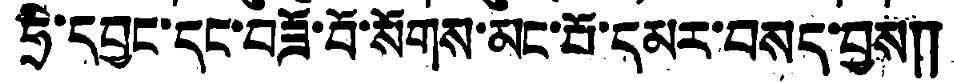ཧྲི་དབྱང་དང་བཟོ་བོ་སོགས་མང་པོ་དམར་བསད་བྱས༎
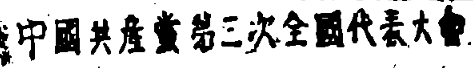中國共產黨第二次全國代表大會
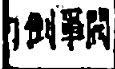打倒軍閥
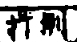打倒
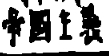帝國主義
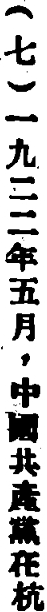（七）一九二二年五月，中國共產黨在杭
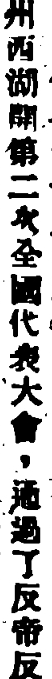州西湖開第二次全國代表大會，通過了反帝反
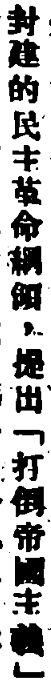封建的民主革命綱領，提出「打倒帝國主義」
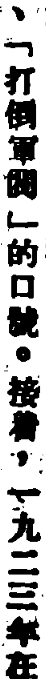、「打倒軍閥」的口號。接着，一九二三年在
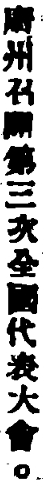廣州召開第三次全國代表大會。
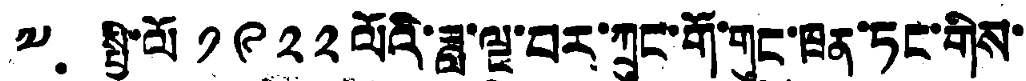༧ སྤྱི་ལོ ༡༩༢༢ ལོའི་ཟླ་ལྔ་བར་ཀྲུང་གོ་གུང་ཁྲན་ཏང་གིས་
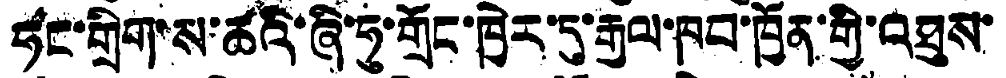ཧང་གྲིག་ས་ཆ་འི་ཞི་ཧུ་གྲོང་ཁྱེར་དུ་རྒྱལ་ཁབ་ཁྱོན་གྱི་འཐུས་
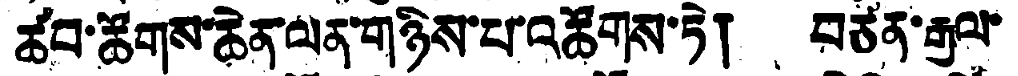ཚབ་ཚོགས་ཆེན་ལན་གཉིས་པ་འཚོགས་ཏེ། བཙན་རྒྱལ་
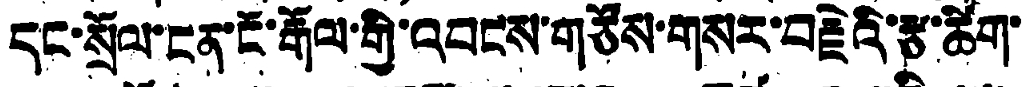དང་སྲོལ་ངན་ངོ་རྒོལ་གྱི་འབངས་གཙོས་གསར་བརྗེའི་རྩ་ཚིག་
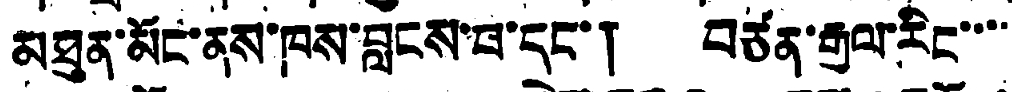མཐུན་མོང་ནས་ཁས་བླངས་བ་དང་། བཙན་རྒྱལ་རིང་་་་
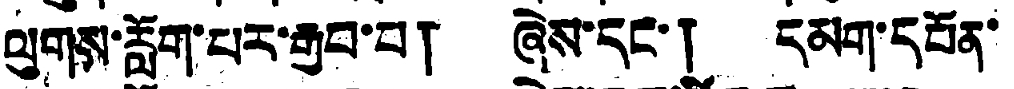ལུགས་རློག་པར་རྒྱབ་བ། ཞེས་དང་། དམག་དཔོན་
